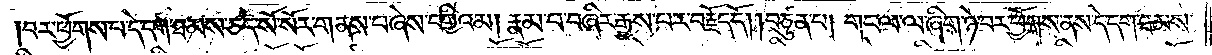བར་ཕྱོགས་པ་དེ་དག་ཐམས་ཅད་སོ་སོར་གནས་པ་ཞེས་བགྱིའམ། རྣམ་པ་བཞིར་རྒྱས་པར་བརྗོད་དོ། །བཙུན་པ། གང་ལ་ལ་ཞིག་ཉེ་བར་ཕྱོགས་ནས་དེ་དག་ཐམས་
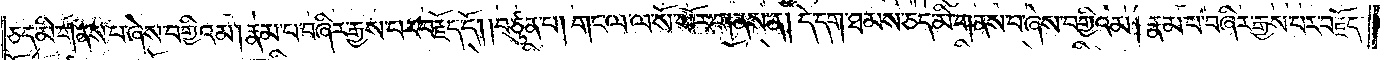ཅད་མི་གནས་པ་ཞེས་བགྱིའམ། རྣམ་པ་བཞིར་རྒྱས་པར་བརྗོད་དོ། །བཙུན་པ། གང་ལ་ལ་སོ་སོར་གནས་ན། དེ་དག་ཐམས་ཅད་མི་གནས་པ་ཞེས་བགྱིའམ། རྣམ་པ་བཞིར་རྒྱས་པར་བརྗོད་
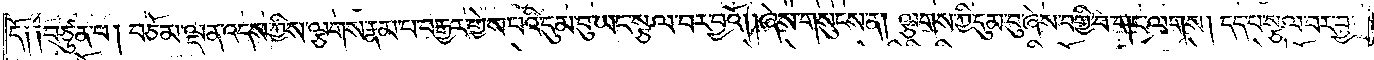དོ༑ ༑བཙུན་པ། བཅོམ་ལྡན་འདས་ཀྱིས་ལྕགས་རྣམ་པར་བརྒྱར་གྱེས་པའི་དུམ་བུ་ཡང་སྩལ་བར་བྱའོ། །ཞེས་གསུངས་ན། ལྕགས་ཀྱི་དུམ་བུ་ཞེས་བགྱི་བ་གང་ལགས། དད་པ་སྩལ་བར་བྱ་
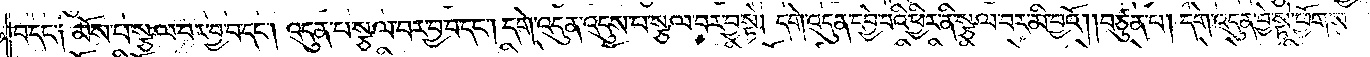བ་དང༌། མོས་པ་སྩལ་བར་བྱ་བ་དང༌། འདུན་པ་སྩལ་བར་བྱ་བ་དང༌། དགེ་འདུན་འདུས་པ་སྩལ་བར་བྱ་སྟེ། དགེ་འདུན་དབྱེ་བའི་ཕྱིར་ནི་སྩལ་བར་མི་བྱའོ། །བཙུན་པ། དགེ་འདུན་བྱེ་སྟེ་ཕྱོགས་
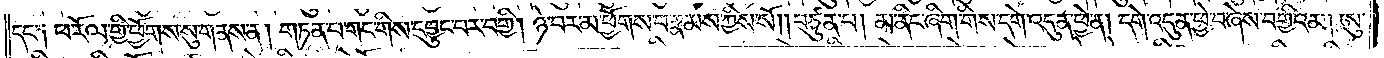དང༌། ཕ་རོལ་གྱི་ཕྱོགས་སུ་གནས་ན། གཏན་པ་གང་གིས་དབྱུང་བར་བགྱི། ཉེ་བར་མ་ཕྱོགས་པ་རྣམས་ཀྱིས་སོ། །བཙུན་པ། མ་ནིང་ཞིག་གིས་དགེ་འདུན་ཕྱེ་ན། དགེ་འདུན་ཕྱེ་བ་ཞེས་བགྱིའམ། ཨུ་
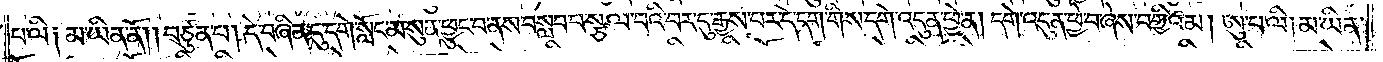པ་ལི། མ་ཡིན་ནོ། །བཙུན་པ། དེ་བཞིན་དུ་དགེ་སློང་མ་སུན་ཕྱུང་བ་ནས་བསླབ་པ་སྩལ་བའི་བར་དུ་རྒྱས་པར་དེ་དག་གིས་དགེ་འདུན་ཕྱེ་ན། དགེ་འདུན་ཕྱེ་བ་ཞེས་བགྱིའམ། ཨུ་པ་ལི། མ་ཡིན་
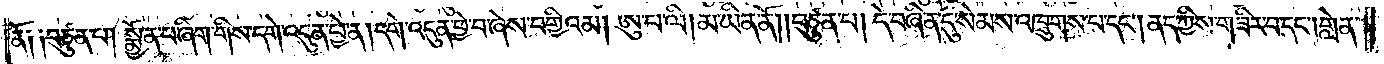ནོ། །བཙུན་པ། སྨྱོན་པ་ཞིག་གིས་དགེ་འདུན་ཕྱེ་ན། དགེ་འདུན་ཕྱེ་བ་ཞེས་བགྱིའམ། ཨུ་པ་ལི། མ་ཡིན་ནོ། །བཙུན་པ། དེ་བཞིན་དུ་སེམས་འཁྲུགས་པ་དང༌། ནད་ཀྱིས་གཟིར་བ་དང༌། གླེན་
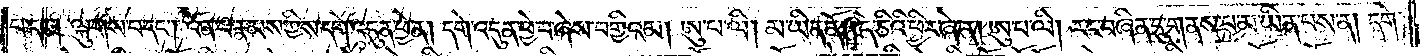པ་དང༌། ལྐུགས་པ་དང༌། འོན་པ་རྣམས་ཀྱིས་དགེ་འདུན་ཕྱེ་ན། དགེ་འདུན་ཕྱེ་བ་ཞེས་བགྱིའམ། ཨུ་པ་ལི། མ་ཡིན་ནོ། །དེ་ཅིའི་ཕྱིར་ཞེ་ན། ཨུ་པ་ལི། རང་བཞིན་དུ་གནས་པ་མ་ཡིན་པས་ན། དགེ་
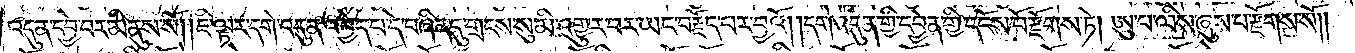འདུན་དབྱེ་བར་མི་ནུས་སོ། །ཇི་ལྟར་དགེ་འདུན་འབྱེད་པ་དེ་བཞིན་དུ་གྲངས་སུ་མི་འགྱུར་བར་ཡང་བརྗོད་པར་བྱའོ། །དགེ་འདུན་གྱི་དབྱེན་གྱི་དངོས་པོ་རྫོགས་ཏེ། ཨུ་པ་ལིས་ཞུས་པ་རྫོགས་སོ༎
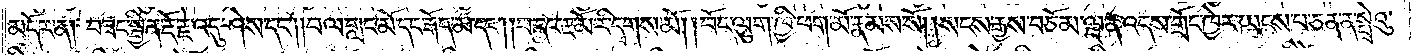མདོར་ན། བཟང་སྦྱིན་རྡོ་རྗེ་འདུ་ཤེས་དང༌། །བལ་གླང་མོ་དང་རྒོད་མ་དང༌། །བ་དང་རྔ་མོ་རི་དྭགས་མོ། །བོང་ལུག་ཁྱི་ཕག་མོ་རྣམས་སོ། །སངས་རྒྱས་བཅོམ་ལྡན་འདས་གྲོང་ཁྱེར་ཡངས་པ་ཅན་ན་སྤྲེའུ་
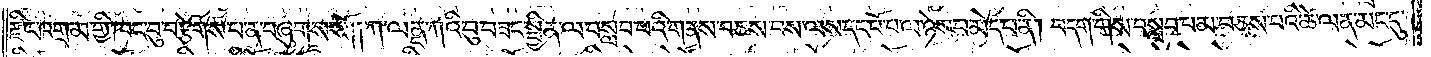རྫིང་འགྲམ་གྱི་ཁང་བུ་བརྩེགས་པ་ན་བཞུགས་སོ། །ཀ་ལནྡ་ཀའི་བུ་བཟང་སྦྱིན་ལ་བསླབ་པའི་གནས་བཅས་པས་ལས་དང་པོ་པ་ལ་ཉེས་པ་མེད་པ་ནི། བདག་གིས་བསླབ་པ་མ་བཅས་པའི་ཚེ་ལན་མང་དུ་
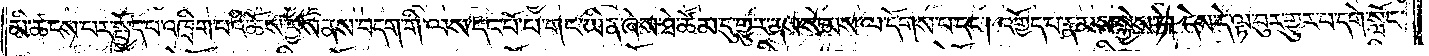མི་ཚངས་པར་སྤྱོད་པ་འཁྲིག་པའི་ཆོས་བྱས་ནས་བདག་གི་ལས་དང་པོ་པ་གང་ཡིན་ཞེས་ཐེ་ཚོམ་དུ་གྱུར་ནས་སེམས་ལ་དོགས་པ་དང༌། འགྱོད་པ་རྣམས་སྐྱེས་ཏེ། དེས་དེ་ལྟ་བུར་གྱུར་པ་དགེ་སློང་
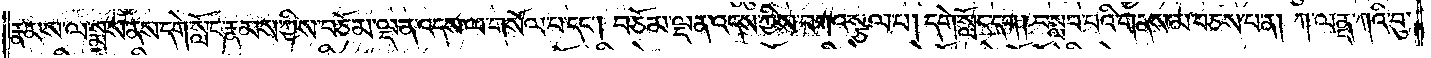རྣམས་ལ་སྨྲས་ནས་དགེ་སློང་རྣམས་ཀྱིས་བཅོམ་ལྡན་འདས་ལ་གསོལ་བ་དང༌། བཅོམ་ལྡན་འདས་ཀྱིས་བཀའ་སྩལ་པ། དགེ་སློང་དག །བསླབ་པའི་གནས་མ་བཅས་པ་ན། ཀ་ལནྡ་ཀའི་བུ་
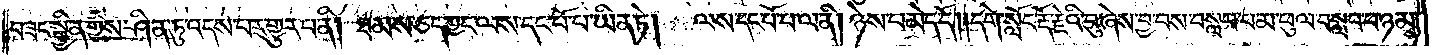བཟང་སྦྱིན་གྱིས་ཤིན་ཏུ་འདས་པར་གྱུར་བ་ནི། ཐམས་ཅད་ཀྱང་ལས་དང་པོ་པ་ཡིན་ཏེ། ལས་དང་པོ་པ་ལ་ནི། ཉེས་པ་མེད་དོ། །དགེ་སློང་རྡོ་རྗེའི་བུ་ཞེས་བྱ་བས་བསླབ་པ་མ་ཕུལ་བསླབ་པ་ཉམས་
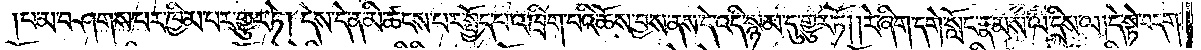པ་མ་བཤགས་པར་ཁྱིམ་པར་གྱུར་ཏེ། དེས་དེ་ན་མི་ཚངས་པར་སྤྱོད་པ་འཁྲིག་པའི་ཆོས་བྱས་ནས་དེ་འདི་སྙམ་དུ་གྱུར་ཏོ། །རེ་ཞིག་དགེ་སློང་རྣམས་ལ་དྲིས་ལ། དེ་སྟེ་བདག་
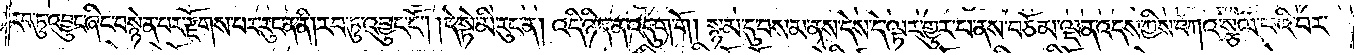རབ་ཏུ་འབྱུང་ཞིང་བསྙེན་པར་རྫོགས་པར་རུང་ན་ནི། རབ་ཏུ་འབྱུང་ངོ༌། །དེ་སྟེ་མི་རུང་ན། འདི་ཉིད་ན་འདུག་གོ། སྙམ་དུ་བསམ་ནས་དེས་དེ་ལྟར་གྱུར་པ་ནས་བཅོམ་ལྡན་འདས་ཀྱིས་བཀའ་སྩལ་པའི་བར་
